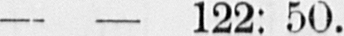— — 122: 50.
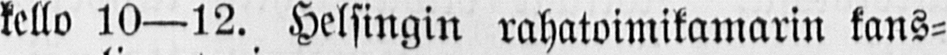kello 10 —12. Helsingin rahatoimikamarin kans-
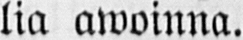lia awoinna.
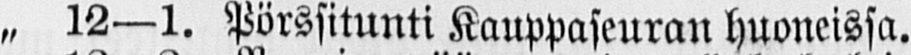„ 12—1. Pörssitunti Kauppaseuran huoneissa.
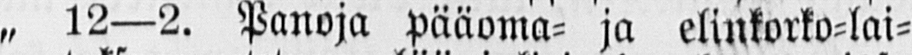„ 12—2. Panoja pääoma- ja elinkorko-lai-
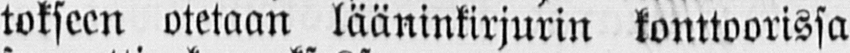tokseen otetaan lääninkirjurin konttoorissa
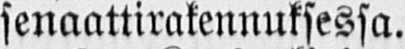senaattirakennuksessa.
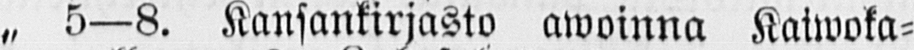„ 5—8. Kansankirjasto awoinna Kaiwoka-
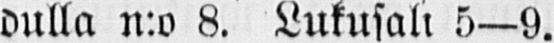dulla n:o 8. Lukusali 5—9.
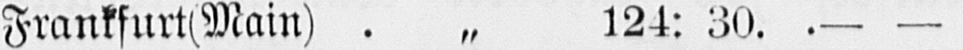Frankfurt(Main) „ 124: 30. — —
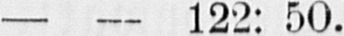— — 122: 50.
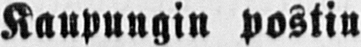Kaupungin postin
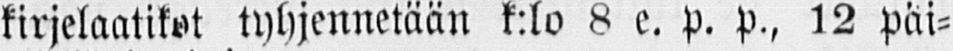kirjelaatikot tyhjennetään k:lo 8 e. p. p., 12 päi-
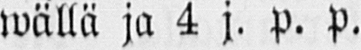wällä ja 4 j. p. P.
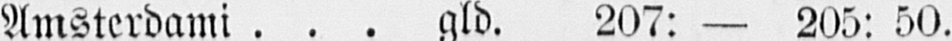Amsterdami gld. 207: — 205: 50.
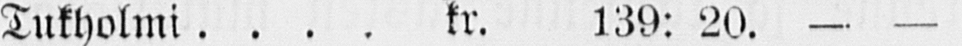Tukholmi kr. 139: 20. — —
